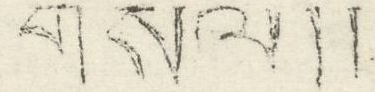གསལ།།
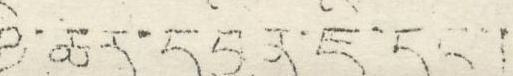ཉེ་ཆར་དབྱིན་ཇི་དང་།
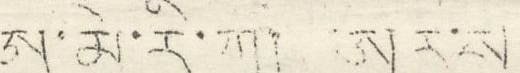ཨ་མི་རི་ཀ། ཨུ་རུ་སུ
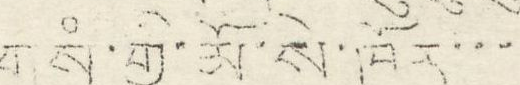གསུཾ་གྱི་མོ་སེ་ཁོར་་་
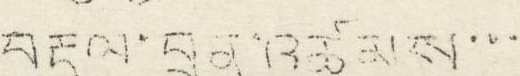བརྡུལ་བྲན་འཚམས་་་
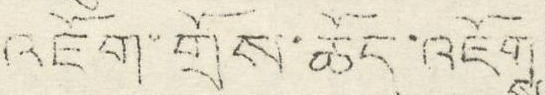འཇོག་གྲོས་ཆོད་འཇོགས
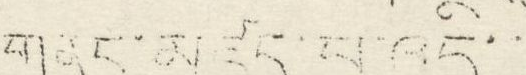གནང་མཛད་པ་འདི་་
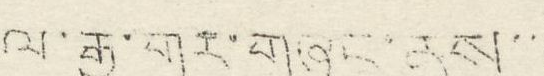ལ་རྒྱ་གར་གཞུང་ནས་་
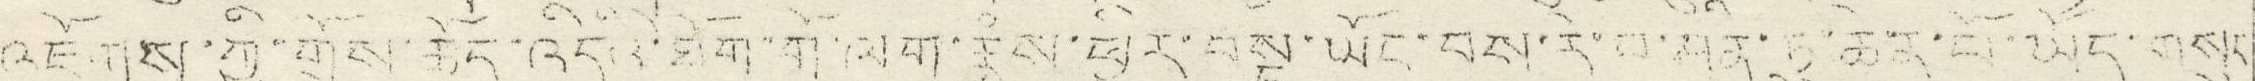འཇོགས་ཀྱི་གྲོས་ཆོད་འདིའི་ཐོག་གོ་ལག་རྣཾས་ཕྱིར་བསྡུ་ཡོང་བས་རེ་བ་ཤིན་ཏུ་ཆེན་པོ་ཡོད་གསུང
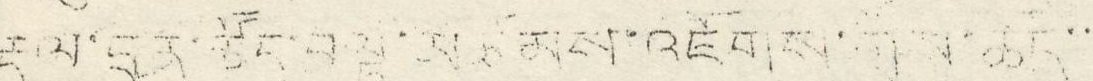དུས་དྲན་ཚོད་བལྟ་མཚམས་འཇོགས་གྲོས་ཚད་་
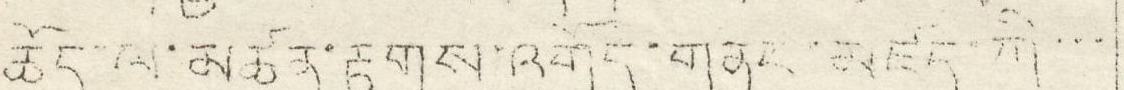ཆོད་ལ་མཚན་རྟགས་འགོད་གནང་མཛད་གི་་་
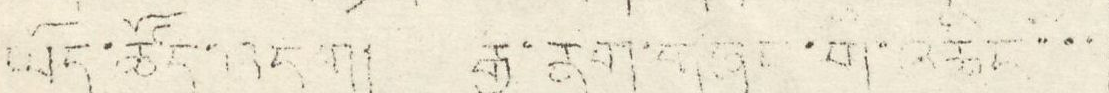ཡོད་ཚོད་འདུག། རྒྱ་ནག་གཞུང་གི་འཆིང་་་
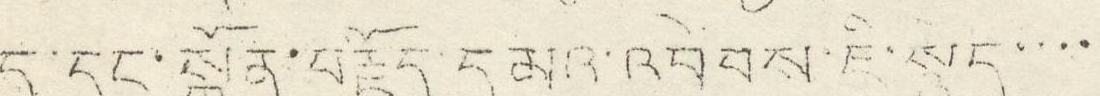ད་དུང་སྐྱོན་བརྗོད་དམན་འབེབས་ཇི་སྙེད་་་་
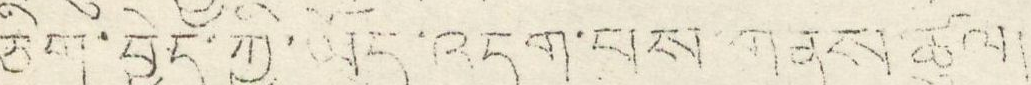ཅིག་བྱེད་ཀྱི་ཡོད་འདུག་པས་གནས་ཚུལ།
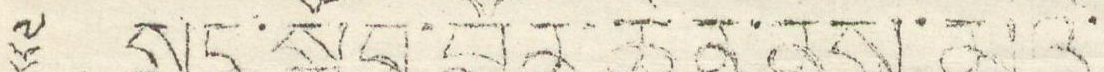༈ སྲུང་སྐྱོབ་བློན་ཆེན་ནས་མའི་
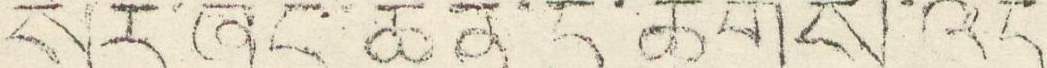སོར་ཞིང་ཆེན་དུ་ཚོགས་འདུ
